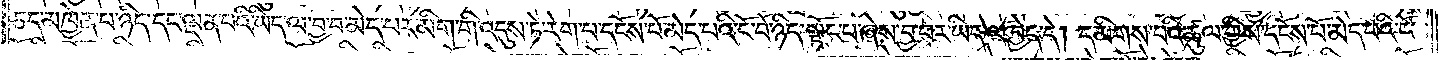ཅད་མཁྱེན་པ་ཉིད་དང་ལྡན་པའི་ཡིད་ལ་བྱ་བ་མེད་པར་མིག་གི་འདུས་ཏེ་རེག་པ་དངོས་པོ་མེད་པའི་ངོ་བོ་ཉིད་སྟོང་པ་ཞེས་བྱ་བར་ཡིད་ལ་བྱེད་དེ། དམིགས་པའི་ཚུལ་གྱིས་དངོས་པོ་མེད་པའི་ངོ་
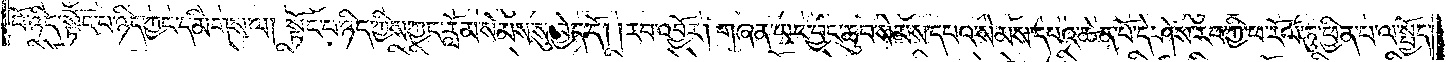བོ་ཉིད་སྟོང་པ་ཉིད་ཀྱང་དམིགས་ལ། སྟོང་པ་ཉིད་ཀྱིས་ཀྱང་རློམ་སེམས་སུ་བྱེད་དོ། །རབ་འབྱོར། གཞན་ཡང་བྱང་ཆུབ་སེམས་དཔའ་སེམས་དཔའ་ཆེན་པོ་དེ་ཤེས་རབ་ཀྱི་ཕ་རོལ་ཏུ་ཕྱིན་པ་ལ་སྤྱོད་
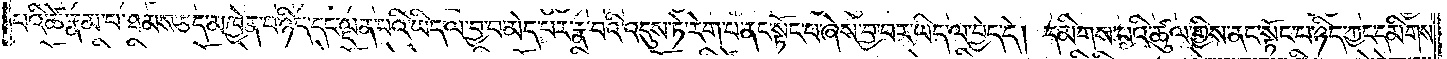པའི་ཚེ་རྣམ་པ་ཐམས་ཅད་མཁྱེན་པ་ཉིད་དང་ལྡན་པའི་ཡིད་ལ་བྱ་བ་མེད་པར་རྣ་བའི་འདུས་ཏེ་རེག་པ་ནང་སྟོང་པ་ཞེས་བྱ་བར་ཡིད་ལ་བྱེད་དེ། དམིགས་པའི་ཚུལ་གྱིས་ནང་སྟོང་པ་ཉིད་ཀྱང་དམིགས་
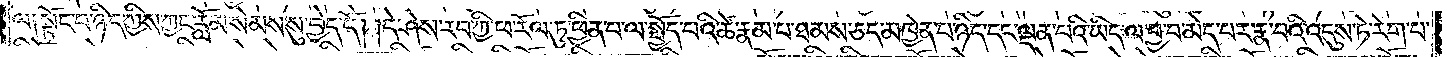ལ༑སྟོང་པ་ཉིད་ཀྱིས་ཀྱང་རློམ་སེམས་སུ་བྱེད་དེ། །དེ་ཤེས་རབ་ཀྱི་ཕ་རོལ་ཏུ་ཕྱིན་པ་ལ་སྤྱོད་པའི་ཚེ་རྣམ་པ་ཐམས་ཅད་མཁྱེན་པ་ཉིད་དང་ལྡན་པའི་ཡིད་ལ་བྱ་བ་མེད་པར་རྣ་བའི་འདུས་ཏེ་རེག་པ་
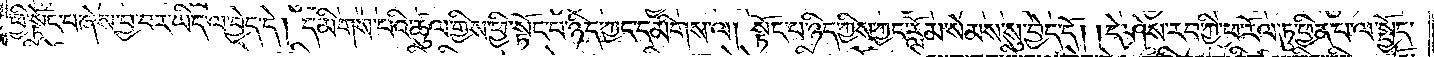ཕྱི་སྟོང་པ་ཞེས་བྱ་བར་ཡིད་ལ་བྱེད་དེ། དམིགས་པའི་ཚུལ་གྱིས་ཕྱི་སྟོང་པ་ཉིད་ཀྱང་དམིགས་ལ། སྟོང་པ་ཉིད་ཀྱིས་ཀྱང་རློམ་སེམས་སུ་བྱེད་དོ། །དེ་ཤེས་རབ་ཀྱི་ཕ་རོལ་ཏུ་ཕྱིན་པ་ལ་སྤྱོད་
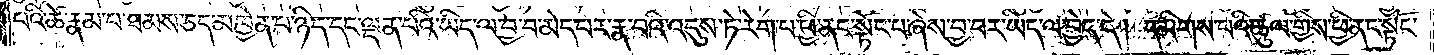པའི་ཚེ་རྣམ་པ་ཐམས་ཅད་མཁྱེན་པ་ཉིད་དང་ལྡན་པའི་ཡིད་ལ་བྱ་བ་མེད་པར་རྣ་བའི་འདུས་ཏེ་རེག་པ་ཕྱི་ནང་སྟོང་པ་ཞེས་བྱ་བར་ཡིད་ལ་བྱེད་དེ། དམིགས་པའི་ཚུལ་གྱིས་ཕྱི་ནང་སྟོང་
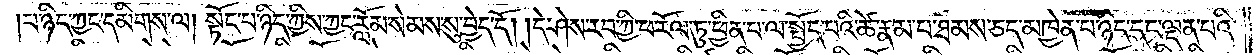པ་ཉིད་ཀྱང་དམིགས་ལ། སྟོང་པ་ཉིད་ཀྱིས་ཀྱང་རློམ་སེམས་སུ་བྱེད་དོ། །དེ་ཤེས་རབ་ཀྱི་ཕ་རོལ་ཏུ་ཕྱིན་པ་ལ་སྤྱོད་པའི་ཚེ་རྣམ་པ་ཐམས་ཅད་མཁྱེན་པ་ཉིད་དང་ལྡན་པའི་
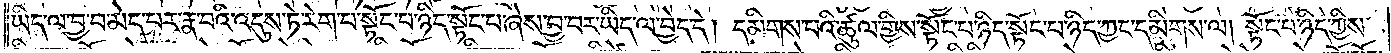ཡིད་ལ་བྱ་བ་མེད་པར་རྣ་བའི་འདུས་ཏེ་རེག་པ་སྟོང་པ་ཉིད་སྟོང་པ་ཞེས་བྱ་བར་ཡིད་ལ་བྱེད་དེ། དམིགས་པའི་ཚུལ་གྱིས་སྟོང་པ་ཉིད་སྟོང་པ་ཉིད་ཀྱང་དམིགས་ལ། སྟོང་པ་ཉིད་ཀྱིས་
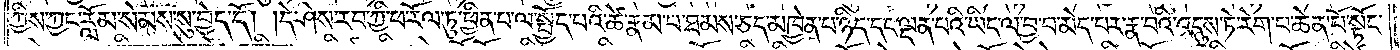ཀྱིས་ཀྱང་རློམ་སེམས་སུ་བྱེད་དོ། །དེ་ཤེས་རབ་ཀྱི་ཕ་རོལ་ཏུ་ཕྱིན་པ་ལ་སྤྱོད་པའི་ཚེ་རྣམ་པ་ཐམས་ཅད་མཁྱེན་པ་ཉིད་དང་ལྡན་པའི་ཡིད་ལ་བྱ་བ་མེད་པར་རྣ་བའི་འདུས་ཏེ་རེག་པ་ཆེན་པོ་སྟོང་
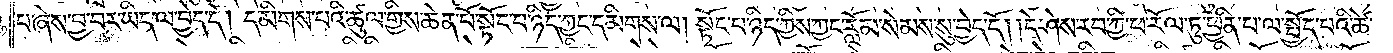པ་ཞེས་བྱ་བར་ཡིད་ལ་བྱེད་དེ། དམིགས་པའི་ཚུལ་གྱིས་ཆེན་པོ་སྟོང་པ་ཉིད་ཀྱང་དམིགས་ལ། སྟོང་པ་ཉིད་ཀྱིས་ཀྱང་རློམ་སེམས་སུ་བྱེད་དོ། །དེ་ཤེས་རབ་ཀྱི་ཕ་རོལ་ཏུ་ཕྱིན་པ་ལ་སྤྱོད་པའི་ཚེ་
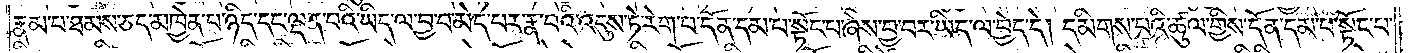རྣམ་པ་ཐམས་ཅད་མཁྱེན་པ་ཉིད་དང་ལྡན་པའི་ཡིད་ལ་བྱ་བ་མེད་པར་རྣ་བའི་འདུས་ཏེ་རེག་པ་དོན་དམ་པ་སྟོང་པ་ཞེས་བྱ་བར་ཡིད་ལ་བྱེད་དེ། དམིགས་པའི་ཚུལ་གྱིས་དོན་དམ་པ་སྟོང་པ་
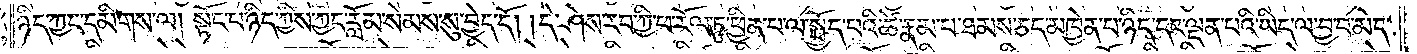ཉིད་ཀྱང་དམིགས་ལ། སྟོང་པ་ཉིད་ཀྱིས་ཀྱང་རློམ་སེམས་སུ་བྱེད་དོ། །དེ་ཤེས་རབ་ཀྱི་ཕ་རོལ་ཏུ་ཕྱིན་པ་ལ་སྤྱོད་པའི་ཚེ་རྣམ་པ་ཐམས་ཅད་མཁྱེན་པ་ཉིད་དང་ལྡན་པའི་ཡིད་ལ་བྱ་བ་མེད་
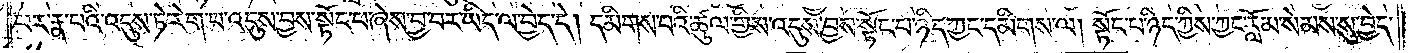པར་རྣ་བའི་འདུས་ཏེ་རེག་པ་འདུས་བྱས་སྟོང་པ་ཞེས་བྱ་བར་ཡིད་ལ་བྱེད་དེ། དམིགས་པའི་ཚུལ་གྱིས་འདུས་བྱས་སྟོང་པ་ཉིད་ཀྱང་དམིགས་ལ། སྟོང་པ་ཉིད་ཀྱིས་ཀྱང་རློམ་སེམས་སུ་བྱེད་
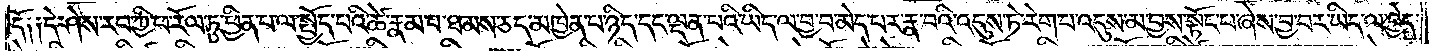དོ༑ ༑དེ་ཤེས་རབ་ཀྱི་ཕ་རོལ་ཏུ་ཕྱིན་པ་ལ་སྤྱོད་པའི་ཚེ་རྣམ་པ་ཐམས་ཅད་མཁྱེན་པ་ཉིད་དང་ལྡན་པའི་ཡིད་ལ་བྱ་བ་མེད་པར་རྣ་བའི་འདུས་ཏེ་རེག་པ་འདུས་མ་བྱས་སྟོང་པ་ཞེས་བྱ་བར་ཡིད་ལ་བྱེད་
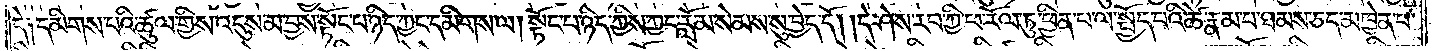དེ༑ དམིགས་པའི་ཚུལ་གྱིས་འདུས་མ་བྱས་སྟོང་པ་ཉིད་ཀྱང་དམིགས་ལ། སྟོང་པ་ཉིད་ཀྱིས་ཀྱང་རློམ་སེམས་སུ་བྱེད་དོ། །དེ་ཤེས་རབ་ཀྱི་ཕ་རོལ་ཏུ་ཕྱིན་པ་ལ་སྤྱོད་པའི་ཚེ་རྣམ་པ་ཐམས་ཅད་མཁྱེན་པ་
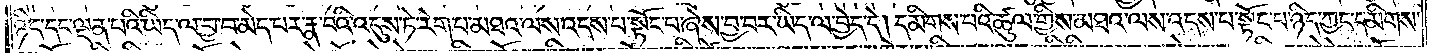ཉིད་དང་ལྡན་པའི་ཡིད་ལ་བྱ་བ་མེད་པར་རྣ་བའི་འདུས་ཏེ་རེག་པ་མཐའ་ལས་འདས་པ་སྟོང་པ་ཞེས་བྱ་བར་ཡིད་ལ་བྱེད་དེ། དམིགས་པའི་ཚུལ་གྱིས་མཐའ་ལས་འདས་པ་སྟོང་པ་ཉིད་ཀྱང་དམིགས་
